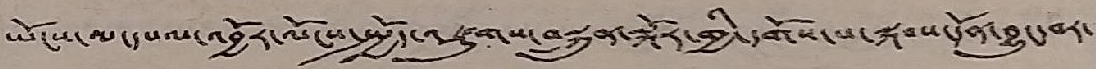ཡོངས་ལ་དཔལ་འབྱོར་ལོངས་སྤྱོད་འཛུགས་བསྐྲུན་སྐོར་གྱི་དགོས་པ་སྐབས་དོན་བྱུང་བར་
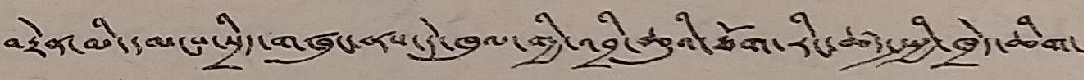བརྟེན་མི་དམངས་སྲིད་གཞུང་ནས་དེ་ཁུལ་གྱི་འབྲི་ཆུའི་ཐོག་རིང་ཚད་སྤྱི་ཁྲེད་ཆིག་
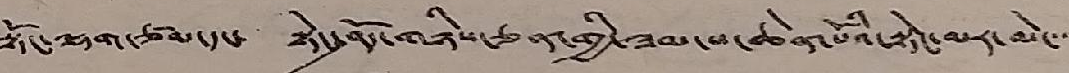སྟོང་ལྷག་ཙམ་དང་ སྟེང་ཤོད་གཉིས་ཅན་གྱི་ཟམ་པ་ཆེན་པོའི་སྟེང་མར་མེ་་་་
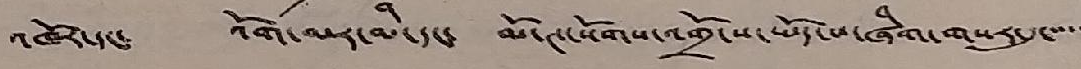འཁོར་དང་ འོག་མར་མི་དང་ མོ་ཊ་སོགས་འགྲོ་ས་ཡོད་པ་ཞིག་གསར་དུ་་་་་
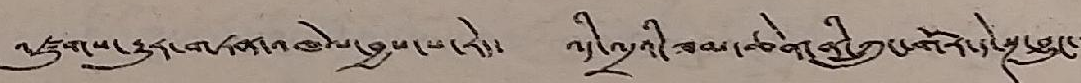འཛུགས་རྒྱུར་གཏན་འཁེལ་བྱས་པ་རེད་ འདི་འདྲའི་ཟམ་ཆེན་ནི་ཀྲུང་གོར་དེ་སྔ་བྱུང་་་་
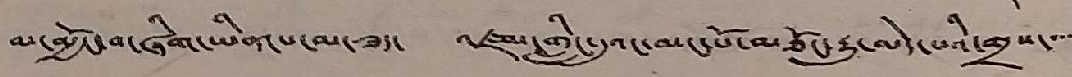མ་མྱོང་བ་ཞིག་ཡིན་པ་མ་ཟད་ འཛམ་གླིང་དུའང་མང་པོ་མཐོང་རྒྱུ་མེད་པའི་གྲས་་་་་
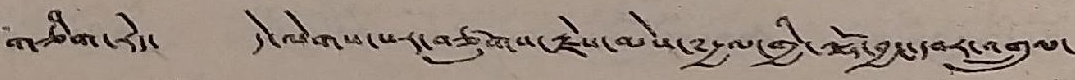གཅིག་རེད་ དེ་ལེགས་པར་བཙུགས་རྗེས་མེས་༸རྒྱལ་གྱི་ལྷོ་བྱང་དབར་འགྲུལ་
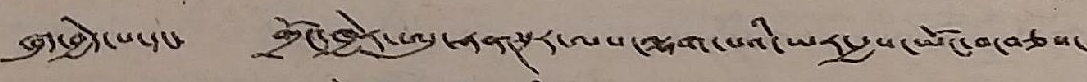ཞུད་བྱེད་པ་དང་ གྲོང་ཁྱེར་ཨུ་ཧན་སྔར་ལས་ལྷག་པའི་ཡར་རྒྱས་ཡོང་བ་བཅས་
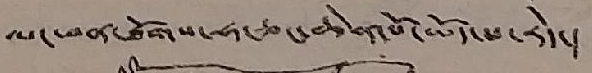ལ་ཕན་ཐོགས་ཧ་ཅང་ཆེན་པོ་ཡོད་པ་རེད་།
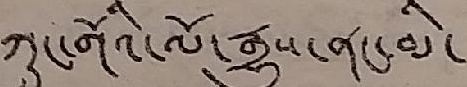ཀྲུང་གོའི་ལོ་རྒྱུས་ནང་མི་
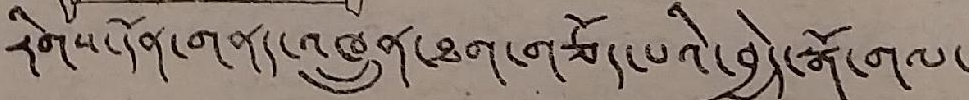རིགས་དོན་གནད་འཁྲུན་ཐག་གཅོད་པའི་བྱེད་སྒོ་གལ་
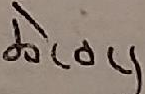ཆེ་བ་།
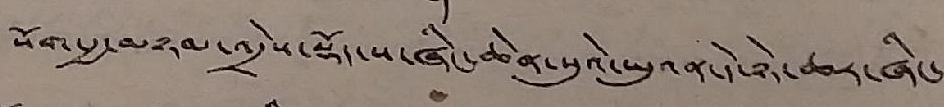སོག་རྒྱ་མཉམ་འདྲེས་སྡོད་ས་ཞིང་ཆེན་སུའེ་ཡུའན་དེ་ཉེ་ཆར་ཞིང་
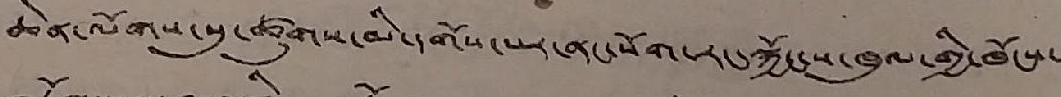ཆེན་ལོགས་སུ་ཚུགས་མི་དགོས་པར་ནང་སོག་རང་སྐྱོང་ས་ཁུལ་གྱི་ཁོངས་
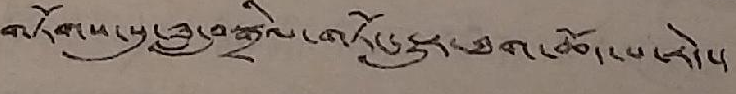གཏོགས་སུ་ཟླ་བསྒྲིལ་གཏོང་རྒྱུར་ཐག་ཆོད་པ་རེད་།
